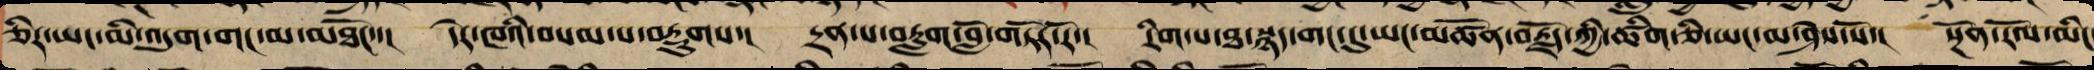ཅི་ཡང་མི་འདུག་གང་མ་མཐོང་་། དེར་ཁའི་བསམ་པ་བརླུགས་། དྲན་པ་བརླགས་བློ་གཏོར་རོ་། རིག་པས་ཐ་སྙད་གང་དུ་ཡང་མཚོན་བརྗོད་ཀྱི་ཚིག་ཅི་ཡང་མ་ཤེས་སོ་། སྔོན་རོལ་མིང
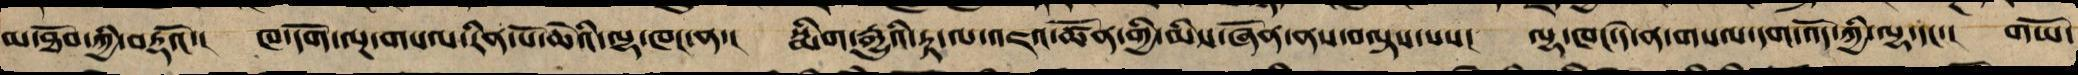མ་ཐོབ་ཀྱི་བརྡའོ་། ཁ་དོག་ལྔ་གསལ་རིན་པོ་ཆེའི་ལྷ་ཁང་ན་། སྨིག་རྒྱུའི་རྟ་ལ་འཇའ་ཚོན་གྱི་མིས་ཞོན་ནས་བལྟས་པས་། ལྷ་ཁང་དེ་ན་གསལ་དག་འོད་ཀྱི་ལྷ་དང་། གཡོ་
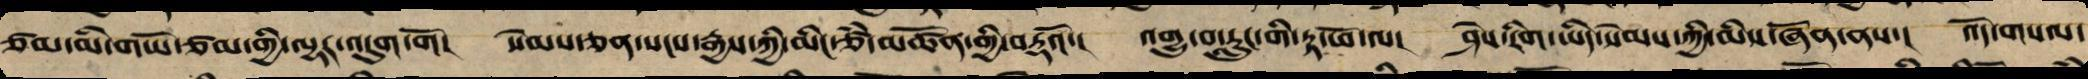ཙམ་མི་གཡོ་ཙམ་གྱི་ལྷར་འདུག་གོ། སེམས་ཅན་སངས་རྒྱས་ཀྱི་མིང་ཙཾ་མཚོན་པའི་བརྡའོ་། འགྱུ་བ་རླུང་གི་རྟ་ཕོ་ལ་། ཤེས་རིག་ཡིད་སེམས་ཀྱི་མིས་ཞོན་ནས་། འོད་གསལ་
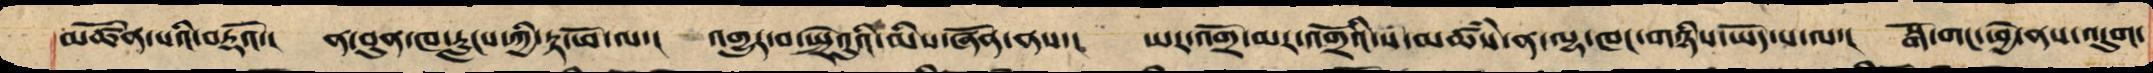མཚོན་པའི་བརྡའོ་། ན་བུན་ཁ་རླངས་ཀྱི་རྟ་ཕོ་ལ་། འགྱུར་བ་སྤྲེའུའི་མིས་ཞོན་ནས་། ཡར་འགྲོ་མར་འགྲོའི་སོ་མཚཾས་ན་ལྷ་ཁང་གཉིས་ཡོད་པ་ལ་། སྒོ་གང་ཕྱེ་ནས་འདུག་
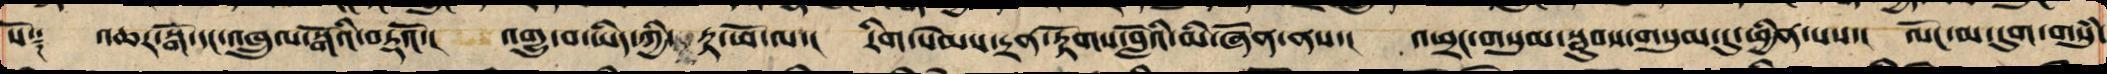སོ༑ འཆར་སྒོ་དང་འཁྲུལ་སྒོའི་བརྡའོ་། འགྱུ་བ་ཡིད་ཀྱི་རྟ་ཕོ་ལ་། རིག་སེམས་དྲན་རྟོག་བློའི་མི་ཞོན་ནས་། འཕྲང་གསུམ་སྦུབས་གསུམ་དུ་ཕྱིན་པས་། ལོང་མ་དུག་གསུཾ་
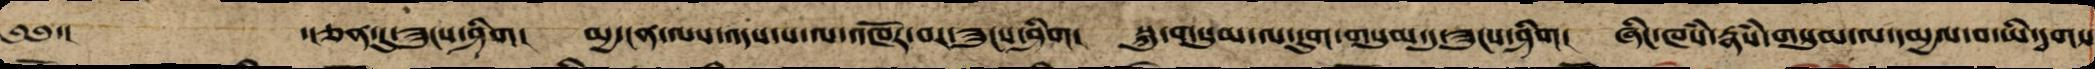༄༅་།  ་།ཅན་དུ་ཟུངས་ཤིག། མྱ་ངན་ལས་འདས་པ་ལ་འཁོར་བར་ཟུངས་ཞིག། སྐུ་གསུམ་ལ་དུག་གསུམ་དུ་ཟུངས་ཤིག། ཞིང་ཁཾས་རྣཾས་གསུམ་ལ་དམྱལ་བ་ཡི་དྭགས་
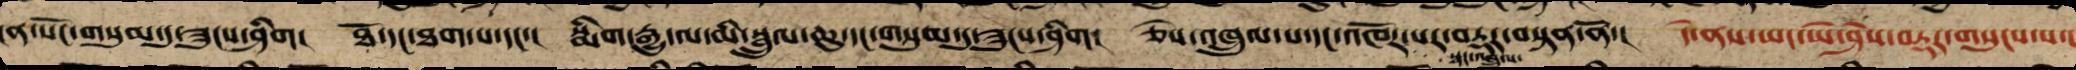ངན་སོང་གསུམ་དུ་ཟུང་ཤིག། ཐོ་དང་ཐག་པ་དང་། སྨིག་རྒྱུ་ལ་མི་སྦྲུལ་ཆུ་དང་གསུམ་དུ་ཟུངས་ཤིག། ཅེས་འཁྲུལ་པ་དང་འཁོར་བ་བརྡར་བསྟན་ནོ་། དེ་ནས་ཡང་ཡེ་ཤེས་བརྡར་གསུངས་པ་།
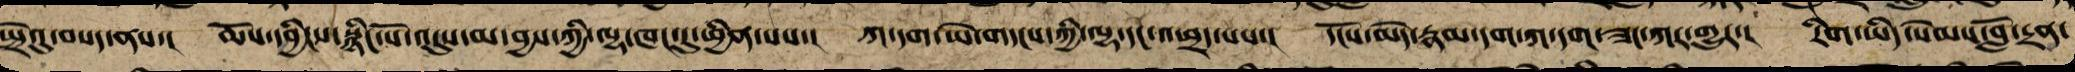སྤྲེའུ་བསད་ནས་། ཆོས་དབྱིངས་སྙིང་པོ་འདུས་མ་བྱས་ཀྱི་ལྷ་ཁང་དུ་ཕྱིན་པས་། ཀ་དག་ཡེ་གདངས་ཀྱི་ལྷ་དང་འཕྲད་པས་། དངོས་མེད་རྣལ་དག་ཀ་དག་ཟང་ཀར་གྱུར་། རིག་ཡིད་སེམས་བློ་དྲན་
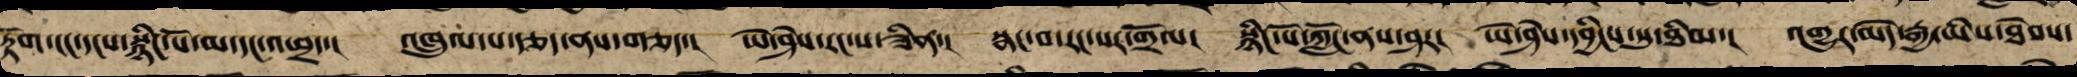རྟོག་ངང་དངས་སྙིང་པོ་མ་དང་འཕྲད་། འཁྲུལ་པ་རྩད་ནས་ཆོད་། ཡེ་ཤེས་རང་ས་ཟིན་། སྣང་བ་རང་སར་གྲོལ། སྙིང་པོ་ཀློང་ནས་ཤར། ཡེ་ཤེས་དབྱིངས་སུ་ཐིམ་། འགྱུར་མེད་རྒྱ་ཡིས་ཐེབས་
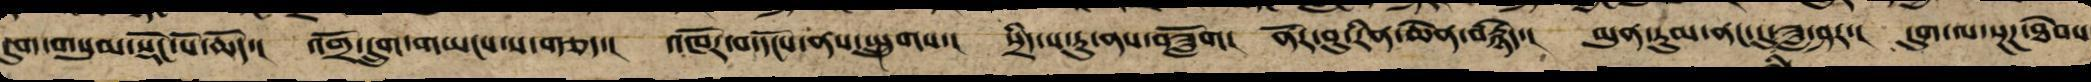དུག་གསུམ་སྡོང་པོ་ཆོད་། འགྲོ་དྲུག་གཡང་ས་གཅད་། འཁོར་བ་དོང་ནས་སྤྲུགས་། སྲིད་པ་རུ་ནས་བཟློག། ནོར་བུ་རིན་ཆེན་བརྙེད་། མུན་རུམ་ནང་དུ་ཟླ་ཤར་། དུག་ལ་སྔཌ་ཐེབས
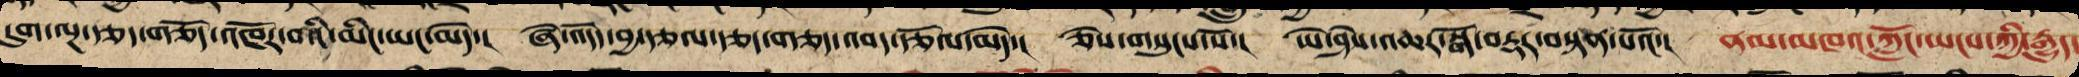དུག་ལྔ་རྩད་གཅད་འཁོར་བའི་མིང་ཡང་མེད་། ཞེ་འདོད་བྱ་རྩལ་རྩད་གཅད་འབད་རྩོལ་མེད་། ཅེས་གསུངས་སོ་། ཡེ་ཤེས་འཆར་སྒོ་བརྡར་བསྟན་པའོ་། ནམ་མཁའ་ཀློང་ཡངས་ཀྱི་རྒྱུད་
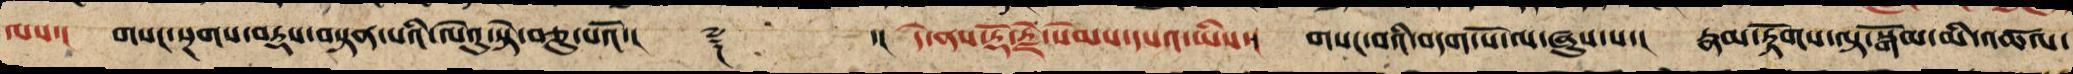ལས་། གསང་སྔགས་བརྡས་བསྟན་པའི་ལེའུ་སྟེ་བཅུ་པའོ་།། ༈ ་།། དེ་ནས་རྡོ་རྗེ་སེམས་དཔའ་ཡིས་། གསང་བའི་བདག་པོ་ལ་ཞུས་པ་། རྣལ་རྟོགས་ལྟ་སྒོམ་མི་འཚལ་
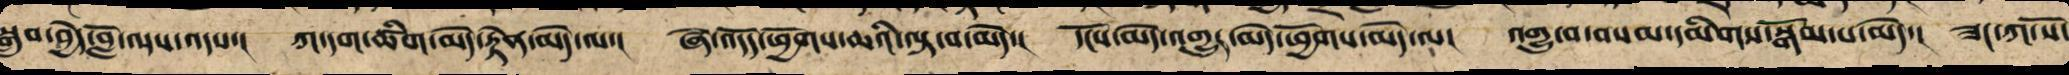སྒྲུབ་མེད་བློ་ལས་འདས་། ཀ་དག་ཚིག་མེད་རྟེན་མེད་ལ་། ཞེ་འདོད་ཕྱོགས་ཆའི་ལྟ་བ་མེད་། དངོས་མེད་འགྱུར་མེད་རྟོག་མེད་ལ་། འགྱུ་བ་བསམ་དམིགས་སྒོམ་པ་མེད་། ཟང་ཀ་སོ་
